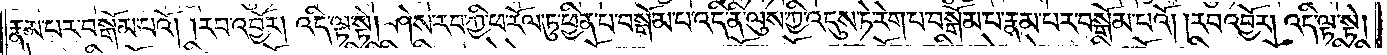རྣམ་པར་བསྒོམ་པའོ། །རབ་འབྱོར། འདི་ལྟ་སྟེ། ཤེས་རབ་ཀྱི་ཕ་རོལ་ཏུ་ཕྱིན་པ་བསྒོམ་པ་འདི་ནི་ལུས་ཀྱི་འདུས་ཏེ་རེག་པ་བསྒོམ་པ་རྣམ་པར་བསྒོམ་པའོ། །རབ་འབྱོར། འདི་ལྟ་སྟེ།
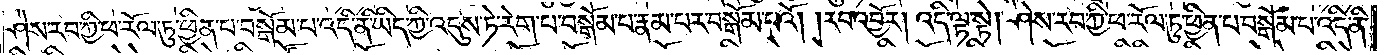ཤེས་རབ་ཀྱི་ཕ་རོལ་ཏུ་ཕྱིན་པ་བསྒོམ་པ་འདི་ནི་ཡིད་ཀྱི་འདུས་ཏེ་རེག་པ་བསྒོམ་པ་རྣམ་པར་བསྒོམ་པའོ། །རབ་འབྱོར། འདི་ལྟ་སྟེ། ཤེས་རབ་ཀྱི་ཕ་རོལ་ཏུ་ཕྱིན་པ་བསྒོམ་པ་འདི་ནི་
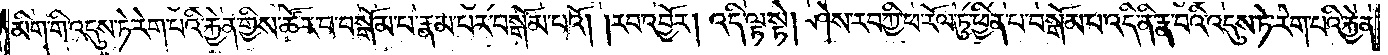མིག་གི་འདུས་ཏེ་རེག་པའི་རྐྱེན་གྱིས་ཚོར་བ་བསྒོམ་པ་རྣམ་པར་བསྒོམ་པའོ། །རབ་འབྱོར། འདི་ལྟ་སྟེ། ཤེས་རབ་ཀྱི་ཕ་རོལ་ཏུ་ཕྱིན་པ་བསྒོམ་པ་འདི་ནི་རྣ་བའི་འདུས་ཏེ་རེག་པའི་རྐྱེན་
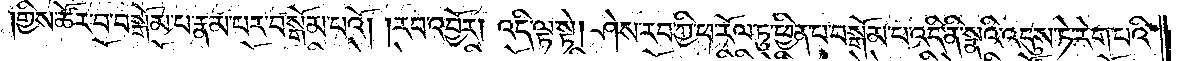གྱིས་ཚོར་བ་བསྒོམ་པ་རྣམ་པར་བསྒོམ་པའོ། །རབ་འབྱོར། འདི་ལྟ་སྟེ། ཤེས་རབ་ཀྱི་ཕ་རོལ་ཏུ་ཕྱིན་པ་བསྒོམ་པ་འདི་ནི་སྣའི་འདུས་ཏེ་རེག་པའི་
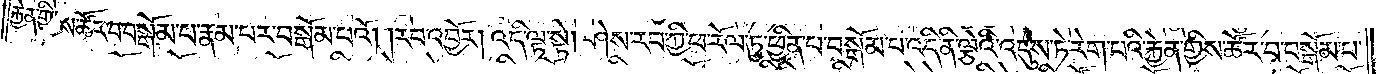རྐྱེན་གྱིས་ཚོར་བ་བསྒོམ་པ་རྣམ་པར་བསྒོམ་པའོ། །རབ་འབྱོར། འདི་ལྟ་སྟེ། ཤེས་རབ་ཀྱི་ཕ་རོལ་ཏུ་ཕྱིན་པ་བསྒོམ་པ་འདི་ནི་ལྕེའི་འདུས་ཏེ་རེག་པའི་རྐྱེན་གྱིས་ཚོར་བ་བསྒོམ་པ་
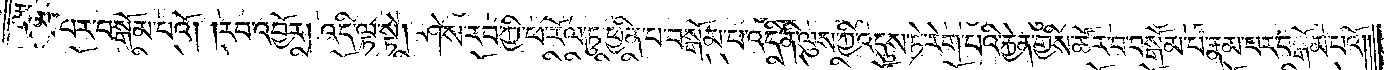རྣམ་པར་བསྒོམ་པའོ། །རབ་འབྱོར། འདི་ལྟ་སྟེ། ཤེས་རབ་ཀྱི་ཕ་རོལ་ཏུ་ཕྱིན་པ་བསྒོམ་པ་འདི་ནི་ལུས་ཀྱི་འདུས་ཏེ་རེག་པའི་རྐྱེན་གྱིས་ཚོར་བ་བསྒོམ་པ་རྣམ་པར་བསྒོམ་པའོ། །
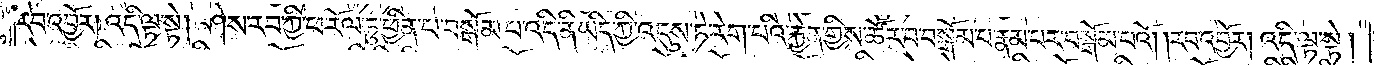རབ་འབྱོར། འདི་ལྟ་སྟེ། ཤེས་རབ་ཀྱི་ཕ་རོལ་ཏུ་ཕྱིན་པ་བསྒོམ་པ་འདི་ནི་ཡིད་ཀྱི་འདུས་ཏེ་རེག་པའི་རྐྱེན་གྱིས་ཚོར་བ་བསྒོམ་པ་རྣམ་པར་བསྒོམ་པའོ། །རབ་འབྱོར། འདི་ལྟ་སྟེ།
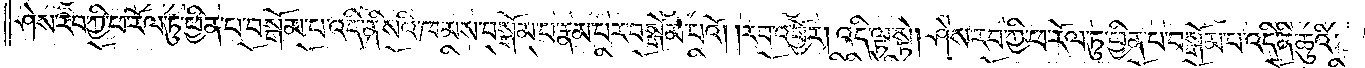ཤེས་རབ་ཀྱི་ཕ་རོལ་ཏུ་ཕྱིན་པ་བསྒོམ་པ་འདི་ནི་སའི་ཁམས་བསྒོམ་པ་རྣམ་པར་བསྒོམ་པའོ། །རབ་འབྱོར། འདི་ལྟ་སྟེ། ཤེས་རབ་ཀྱི་ཕ་རོལ་ཏུ་ཕྱིན་པ་བསྒོམ་པ་འདི་ནི་ཆུའི་
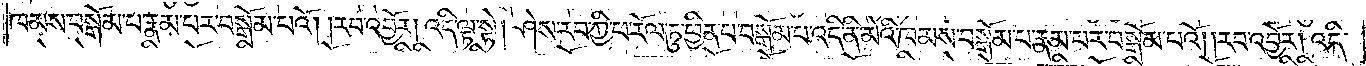ཁམས་བསྒོམ་པ་རྣམ་པར་བསྒོམ་པའོ། །རབ་འབྱོར། འདི་ལྟ་སྟེ། ཤེས་རབ་ཀྱི་ཕ་རོལ་ཏུ་ཕྱིན་པ་བསྒོམ་པ་འདི་ནི་མེའི་ཁམས་བསྒོམ་པ་རྣམ་པར་བསྒོམ་པའོ། །རབ་འབྱོར། འདི་
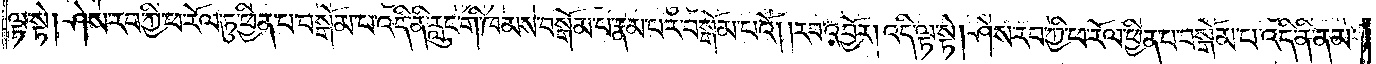ལྟ་སྟེ། ཤེས་རབ་ཀྱི་ཕ་རོལ་ཏུ་ཕྱིན་པ་བསྒོམ་པ་འདི་ནི་རླུང་གི་ཁམས་བསྒོམ་པ་རྣམ་པར་བསྒོམ་པའོ། །རབ་འབྱོར། འདི་ལྟ་སྟེ། ཤེས་རབ་ཀྱི་ཕ་རོལ་ཏུ་ཕྱིན་པ་བསྒོམ་པ་འདི་ནི་ནམ་
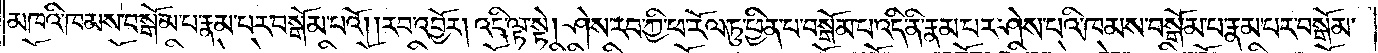མཁའི་ཁམས་བསྒོམ་པ་རྣམ་པར་བསྒོམ་པའོ། །རབ་འབྱོར། འདི་ལྟ་སྟེ། ཤེས་རབ་ཀྱི་ཕ་རོལ་ཏུ་ཕྱིན་པ་བསྒོམ་པ་འདི་ནི་རྣམ་པར་ཤེས་པའི་ཁམས་བསྒོམ་པ་རྣམ་པར་བསྒོམ་
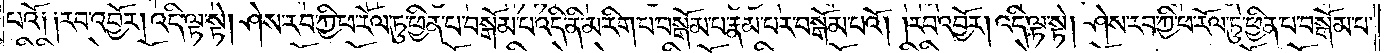པའོ། །རབ་འབྱོར། འདི་ལྟ་སྟེ། ཤེས་རབ་ཀྱི་ཕ་རོལ་ཏུ་ཕྱིན་པ་བསྒོམ་པ་འདི་ནི་མ་རིག་པ་བསྒོམ་པ་རྣམ་པར་བསྒོམ་པའོ། །རབ་འབྱོར། འདི་ལྟ་སྟེ། ཤེས་རབ་ཀྱི་ཕ་རོལ་ཏུ་ཕྱིན་པ་བསྒོམ་པ་
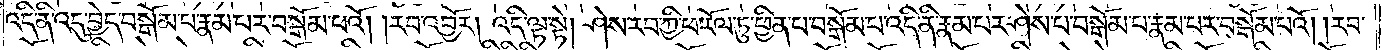འདི་ནི་འདུ་བྱེད་བསྒོམ་པ་རྣམ་པར་བསྒོམ་པའོ། །རབ་འབྱོར། འདི་ལྟ་སྟེ། ཤེས་རབ་ཀྱི་ཕ་རོལ་ཏུ་ཕྱིན་པ་བསྒོམ་པ་འདི་ནི་རྣམ་པར་ཤེས་པ་བསྒོམ་པ་རྣམ་པར་བསྒོམ་པའོ། །རབ་
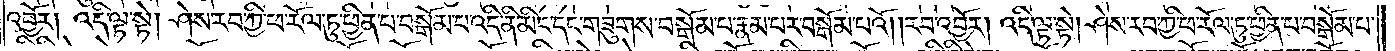འབྱོར། འདི་ལྟ་སྟེ། ཤེས་རབ་ཀྱི་ཕ་རོལ་ཏུ་ཕྱིན་པ་བསྒོམ་པ་འདི་ནི་མིང་དང་གཟུགས་བསྒོམ་པ་རྣམ་པར་བསྒོམ་པའོ། །རབ་འབྱོར། འདི་ལྟ་སྟེ། ཤེས་རབ་ཀྱི་ཕ་རོལ་ཏུ་ཕྱིན་པ་བསྒོམ་པ་
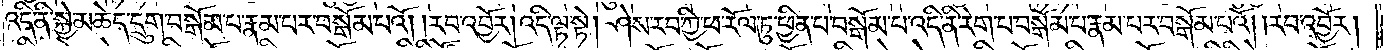འདི་ནི་སྐྱེ་མཆེད་དྲུག་བསྒོམ་པ་རྣམ་པར་བསྒོམ་པའོ། །རབ་འབྱོར། འདི་ལྟ་སྟེ། ཤེས་རབ་ཀྱི་ཕ་རོལ་ཏུ་ཕྱིན་པ་བསྒོམ་པ་འདི་ནི་རེག་པ་བསྒོམ་པ་རྣམ་པར་བསྒོམ་པའོ། །རབ་འབྱོར།
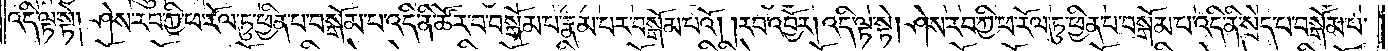འདི་ལྟ་སྟེ། ཤེས་རབ་ཀྱི་ཕ་རོལ་ཏུ་ཕྱིན་པ་བསྒོམ་པ་འདི་ནི་ཚོར་བ་བསྒོམ་པ་རྣམ་པར་བསྒོམ་པའོ། །རབ་འབྱོར། འདི་ལྟ་སྟེ། ཤེས་རབ་ཀྱི་ཕ་རོལ་ཏུ་ཕྱིན་པ་བསྒོམ་པ་འདི་ནི་སྲེད་པ་བསྒོམ་པ་
